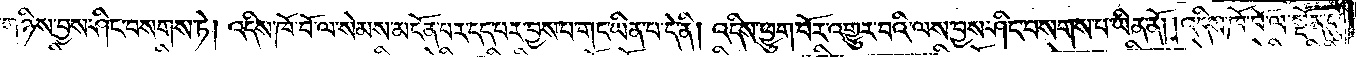གཉིས་བྱས་ཤིང་བསགས་ཏེ། འདིས་ཁོ་བོ་ལ་སེམས་མངོན་པར་དད་པར་བྱས་པ་གང་ཡིན་པ་དེ་ནི། འདིས་ཕྱུག་པོར་འགྱུར་བའི་ལས་བྱས་ཤིང་བསགས་པ་ཡིན་ནོ། །འདིས་ཁོ་བོ་ལ་སྔོན་དུ་
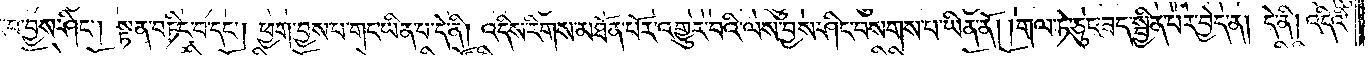བ་བྱས་ཤིང༌། སྟན་བཏིང་བ་དང༌། ཕྱག་བྱས་པ་གང་ཡིན་པ་དེ་ནི། འདིས་རིགས་མཐོན་པོར་འགྱུར་བའི་ལས་བྱས་ཤིང་བསགས་པ་ཡིན་ནོ། །གལ་ཏེ་ཅུང་ཟད་སྦྱིན་པར་བྱེད་ན། དེ་ནི། འདིའི་
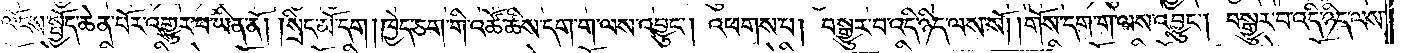ལོངས་སྤྱོད་ཆེན་པོར་འགྱུར་བ་ཡིན་ནོ། །སྲིང་མོ་དག །ཁྱེད་ཅག་གི་འཚོ་ཚིས་དག་ག་ལས་འབྱུང༌། འཕགས་པ། བསྒྱུར་བ་འདི་ཉིད་ལས་སོ། །གོས་དག་ག་ལས་འབྱུང༌། བསྒྱུར་བ་འདི་ཉིད་ལས་
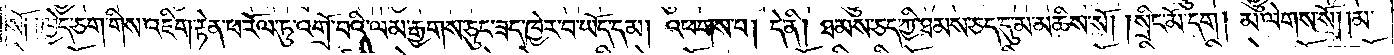སོ༑ ༑ཁྱེད་ཅག་གིས་འཇིག་རྟེན་ཕ་རོལ་ཏུ་འགྲོ་བའི་ལམ་རྒྱགས་ཅུང་ཟད་ཁྱེར་བ་ཡོད་དམ། འཕགས་པ། དེ་ནི། ཐམས་ཅད་ཀྱི་ཐམས་ཅད་དུ་མ་མཆིས་སོ། །སྲིང་མོ་དག །མ་ལེགས་སོ། །མ་
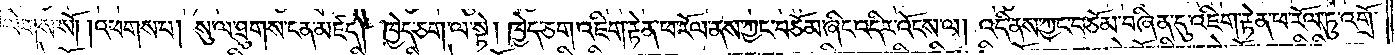ལེགས་སོ། །འཕགས་པ། སུ་ལ་ཐུགས་ངན་མཛད། ཁྱེད་ཅག་ལ་སྟེ། ཁྱེད་ཅག་འཇིག་རྟེན་ཕ་རོལ་ནས་ཀྱང་བཅོམ་ཞིང་འདིར་འོངས་ལ། འདི་ནས་ཀྱང་བཅོམ་བཞིན་དུ་འཇིག་རྟེན་ཕ་རོལ་ཏུ་འགྲོ་
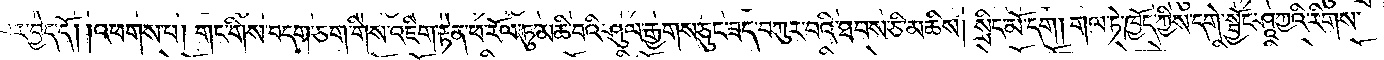བར་བྱེད་དོ། །འཕགས་པ། གང་གིས་བདག་ཅག་གིས་འཇིག་རྟེན་ཕ་རོལ་ཏུ་མཆི་བའི་ཤུལ་རྒྱགས་ཅུང་ཟད་བཀུར་བའི་ཐབས་ཅི་མཆིས། སྲིང་མོ་དག །གལ་ཏེ་ཁྱོད་ཀྱིས་དགེ་སྦྱོང་ཤཱཀྱའི་རིགས་
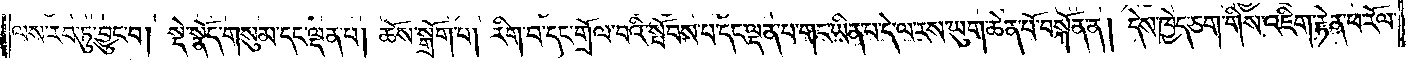ལས་རབ་ཏུ་བྱུང་བ། སྡེ་སྣོད་གསུམ་དང་ལྡན་པ། ཆོས་སྒྲོག་པ། རིག་པ་དང་གྲོལ་བའི་སྤོབས་པ་དང་ལྡན་པ་གང་ཡིན་པ་དེ་ལ་རས་ཡུག་ཆེན་པོ་བསྐོན་ན། དེས་ཁྱེད་ཅག་གིས་འཇིག་རྟེན་ཕ་རོལ་
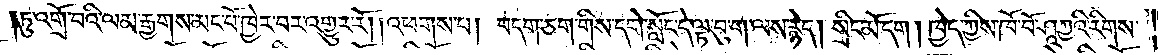ཏུ་འགྲོ་བའི་ལམ་རྒྱགས་མང་པོ་ཁྱེར་བར་འགྱུར་རོ། །འཕགས་པ། བདག་ཅག་གིས་དགེ་སློང་དེ་ལྟ་བུ་ག་ལས་རྙེད། སྲིང་མོ་དག །ཁྱེད་ཀྱིས་ཁོ་བོ་ཤཱཀྱའི་རིགས་
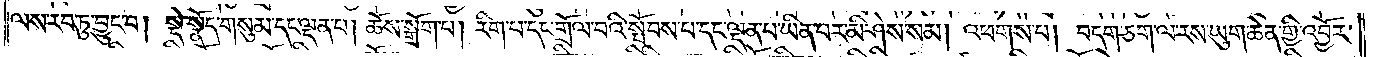ལས་རབ་ཏུ་བྱུང་བ། སྡེ་སྣོད་གསུམ་དང་ལྡན་པ། ཆོས་སྒྲོག་པ། རིག་པ་དང་གྲོལ་བའི་སྤོབས་པ་དང་ལྡན་པ་ཡིན་པར་མི་ཤེས་སམ། འཕགས་པ། བདག་ཅག་ལ་རས་ཡུག་ཆེན་གྱི་འབྱོར་
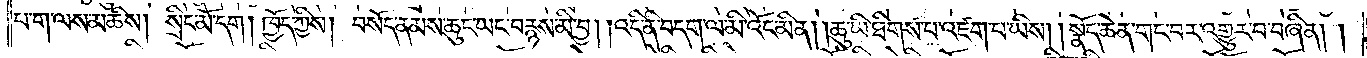པ་ག་ལས་མཆིས། སྲིང་མོ་དག །ཁྱོད་ཀྱིས། བསོད་ནམས་ཆུང་ཡང་བརྙས་མི་བྱ། །འདི་ནི་བདག་ལ་མི་འོང་མིན། །ཆུ་ཡི་ཐིགས་པ་འཛག་པ་ཡིས། །སྣོད་ཆེན་གང་བར་འགྱུར་བ་བཞིན། །
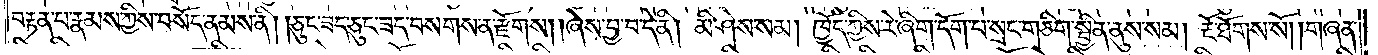བརྟན་པ་རྣམས་ཀྱིས་བསོད་ནམས་ནི། །ཅུང་ཟད་ཅུང་ཟད་བསགས་ན་རྫོགས། །ཞེས་བྱ་བ་དེ་ནི། མི་ཤེས་སམ། ཁྱོད་ཀྱིས་རེ་ཞིག་དོག་པ་སྲང་གཅིག་སྦྱིན་ནུས་སམ། རྔོ་ཐོགས་སོ། །གཞན་
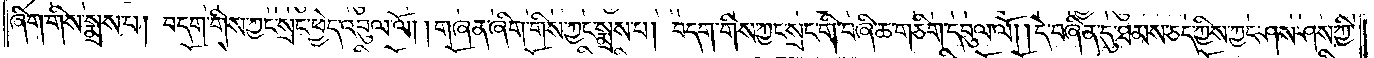ཞིག་གིས་སྨྲས་པ། བདག་གིས་ཀྱང་སྲང་ཕྱེད་འབུལ་ལོ། །གཞན་ཞིག་གིས་ཀྱང་སྨྲས་པ། བདག་གིས་ཀྱང་སྲང་གི་བཞི་ཆ་གཅིག་དབུལ་ལོ། །དེ་བཞིན་དུ་ཐམས་ཅད་ཀྱིས་ཀྱང་ཤས་ཤས་ཀྱི་
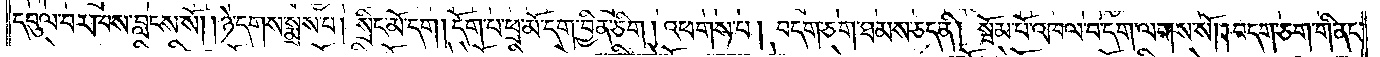དབུལ་བར་ཁས་བླངས་སོ། །ཉེ་དགས་སྨྲས་པ། སྲིང་མོ་དག །དོག་པ་ཕྲ་མོ་དག་བྱིན་ཅིག །འཕགས་པ། བདག་ཅག་ཐམས་ཅད་ནི། སྦོམ་པོ་འཁལ་བ་དག་ལགས་སོ། །བདག་ཅག་གི་ནང་
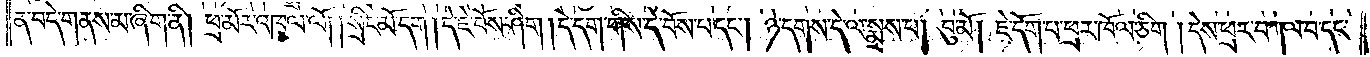ན་བདེ་གནས་མ་ཞིག་ནི། ཕྲ་མོར་འཁལ་ལོ། །སྲིང་མོ་དག །དེ་ཇེ་བོས་ཤིག །དེ་དག་གིས་དེ་བོས་པ་དང༌། ཉེ་དགས་དེ་ལ་སྨྲས་པ། བུ་མོ། ཇེ་དོག་བ་ཕྲར་ཁོལ་ཅིག །དེས་ཕྲར་བཀལ་བ་དང་
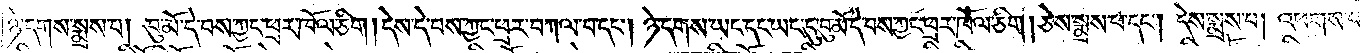ཉེ་དགས་སྨྲས་པ། བུ་མོ་དེ་བས་ཀྱང་ཕྲར་ཁོལ་ཅིག །དེས་དེ་བས་ཀྱང་ཕྲར་བཀལ་བ་དང༌། ཉེ་དགས་ཡང་དང་ཡང་དུ་བུ་མོ་དེ་བས་ཀྱང་ཕྲར་ཁོལ་ཅིག །ཅེས་སྨྲས་པ་དང༌། དེས་སྨྲས་པ། འཕགས་པ།
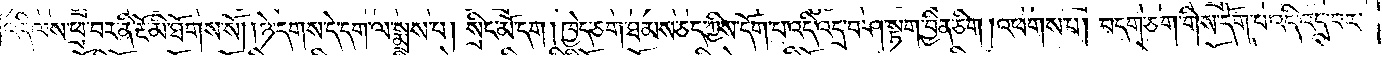འདི་ལས་ཕྲ་བར་ནི་རྔོ་མི་ཐོགས་སོ། །ཉེ་དགས་དེ་དག་ལ་སྨྲས་པ། སྲིང་མོ་དག །ཁྱེད་ཅག་ཐམས་ཅད་ཀྱིས་དོག་པ་འདི་འདྲ་བ་ཤ་སྟག་བྱིན་ཅིག །འཕགས་པ། བདག་ཅག་གིས་དོག་པ་འདི་འདྲ་བར་
